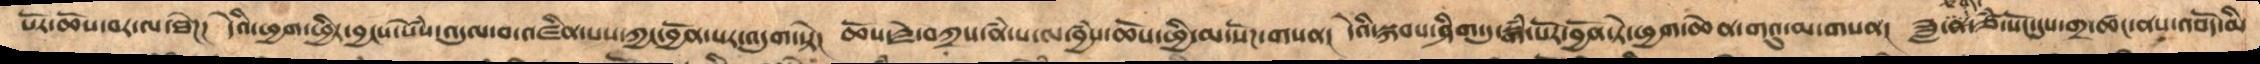པོརཆོས་བར་ལ་ཐེཌ། དེའི་ཕྱག་ཕྱིར་བྱངས་སེཾས་འདུལ་བ་འཛིན་པས་ཀྱང་བྱོན་པར་འདུག་སྟེ། ཆོས་རྗེ་བཀྲས་ནཾ་པ་ལ་བྱཾས་ཆོས་ཕྱི་མ་སོཌ་གསན། དེའི་སྐབས་ཤིག་དུ་སྒཾ་པོར་བྱོན་ཏེ་ཕྱག་ཆེན་གའུ་མ་གསན། ཟླ་བ་ཅིག་ཙཾ་སོང་དུས་གྲ་ཚང་ནས་འབོད་མི་
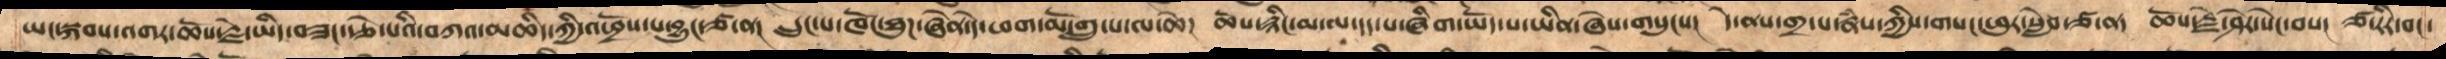ཡང་སྐབས་འགར་ཆོས་རྗེ་ཡིད་བཟང་རྩེ་པའི་བཀའ་མཆིད་ཀྱི་འཕྲོས་པ་བྱུང་ཙ་ན།  དྲུང་པ་ཁོང་ཐུཌ་ཞེན་དེ་ཕག་མོ་གྲུ་པ་ལ་ཆེ།  ཆོས་རྙིང་མ་ལ་དད་པ་ཞིག་ཡོད་པ་ཡིན་ཞེས་གསུངས།  དེ་ནས་གྲ་པ་རྣཾས་ཀྱིས་གསང་ཕུར་སླེབ་ཙ་ན།  ཆོས་རྗེ་ཤེར་སེང་བས།  ཙ་རིར་བང་
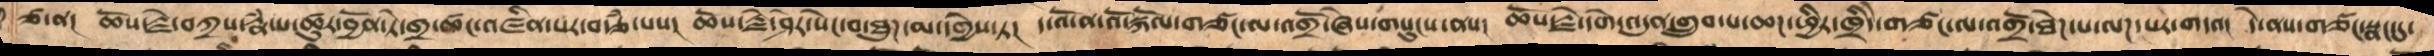ཙ་ན།  ཆོས་རྗེ་བཀྲས་རྣཾ་པ་ཚུར་བྱོན་ཏེ་གྲ་ཚང་འཛིན་པར་བརྩཾ་པས།  ཆོས་རྗེ་ཤེར་སེང་བ་ཐུཌ་མ་དགྱེས་ཏ།  ད་འོ་ན་འོ་སྐོལ་གཙང་ལ་འགྲོ་ཞེས་གསུངས་ནས།  ཆོས་རྗེ་དགེ་འདུན་གྲུབ་པ་ཆཌ་ཕྱིར་ཁྲིདེ་གཙང་ལ་འགྲོ་ཐེཌ་པ་ལཌ་པར་གདའ།  དེ་ནས་གཙང་སྣང་དུ་་
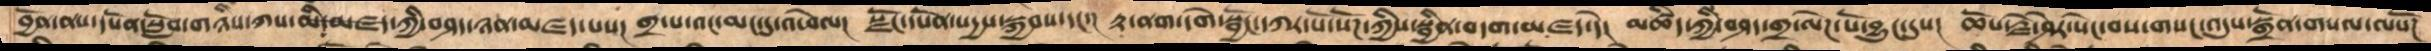བྱོན་ནས་དཔོན་སློབ་གཉིས་ཀས་མི་མཛདད་ཀྱི་བཤད་ཉན་མཛད་པས།  གྲ་པ་འང་མང་དུ་འཕེལ།  སྫོང་དཔོན་སདྱས་སྐྱབས་དང་།  རྟ་ནག་དགེ་སྦྱོང་དཀར་པོ་སོཌ་ཀྱིས་སྦྱིན་བདག་མཛད་དེ།  མཚིད་ཀྱི་བཤད་གྲ་ལེཌ་པོ་བྱུང་དུས།  ཆོས་རྗེ་ཤེར་སེང་བས་གསང་འདུས་སྒྲོན་གསལ་ལསོཌ
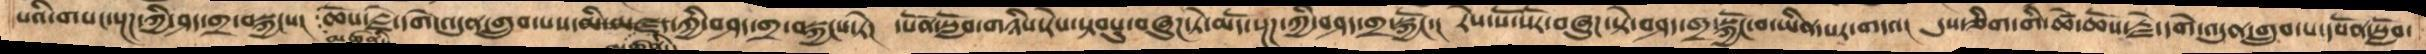པའི་གསང་སྔཌ་ཀྱི་ཤད་གྲ་བསྐྱངས། མཚན་ཆོས་རྗེ་དགེ་འདུན་གྲུབ་པས་མི་མཛད་ཀྱིབཤད་གྲ་བསྐྱངས་ཏེ། དཔོན་སློབ་གཉིས་རེས་སྟབསུ་བཞུཌ་ཏེ་མདོ་སྔཌ་ཀྱི་བཤད་གྲ་སྐྱོང་། རེས་སོ་སོར་བཞུཌ་སྟེ་བཤད་གྲ་སྐྱོང་བ་ཡིན་པར་གདའ། དུས་ཅིག་གི་ཚེ་ཆོས་རྗེ་དགེ་འདུན་གྲུབ་པ་དཔོན་སློབ་
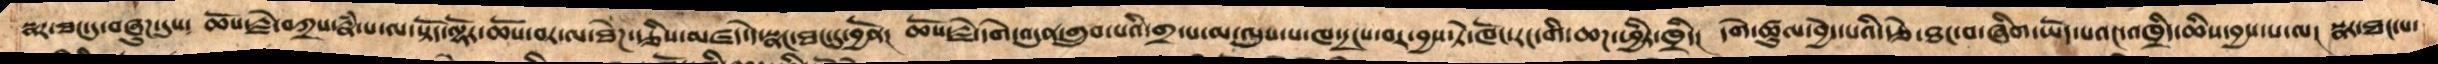སྣར་ཐང་དུ་བཞུཌ་དུས།  ཆོས་རྗེ་བཀྲས་རྣཾ་པ་ལ་སྟོད་ལྷོར་ཆོས་བར་ལ་ཐེཌ་རྩིས་མཛད་དེ་སྣར་ཐང་དུ་བྱོན།  ཆོས་རྗེ་དགེ་འདུན་གྲུབ་པའི་གྲ་པ་མ་ལུས་པ་ཁ་དྲངས་བར་བྱས་ཏེ་ཁོང་རང་གི་ཆཌ་ཕྱིར་ཁྲིད།  དགེ་ཚུལ་བྱེད་པའི་རྩེ་ཐང་བ་ཞིག་ཡོད་པའང་འཁྲིད་ཆིས་བྱས་པ་ལ།  སྣར་ཐང་པ་
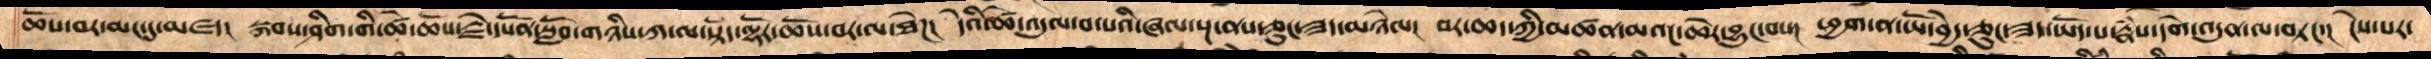ཆོས་བར་མང་དུ་མཛད།   སྐབས་ཤིག་གི་ཚེ་ཆོས་རྗེ་དཔོན་སློབ་གཉིས་ཀ་ལ་སྟོད་ལྷོར་ཆོས་བར་ལ་ཐེཌ།   དེའི་ཚེ་འདུལ་བ་པའི་ཞལ་སྔ་ནས་ཅུང་ཟད་མཉེལ།  བར་ཆད་ཀྱི་མཚན་མའང་ཆེར་བྱུང་བས།  ཕྱག་ན་ཡོ་བྱེད་ཅུང་ཟད་ཡོད་པ་རྣཾས་དགེ་འདུན་ལ་བཏང་།  ངེས་པར་
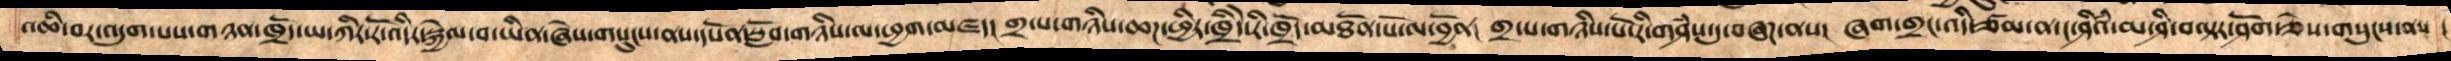འཆི་བར་འདུག་པས་གཉན་ཁྲོད་ཡ་ཀིར་རོ་འདིར་སྐྱེལ་བ་ཡིན་ཞེས་གསུངས་ནས་དཔོན་སློབ་གཉིས་ལ་ཕྱག་མཛད།  གྲ་པ་གཉིས་ཆཌ་ཕྱིར་ཁྲིདེ་རི་ཁྲོད་མཐོན་པོ་ལ་བྱོན།  གྲ་པ་གཉིས་པོ་རི་གཤཾས་དུ་བཞཌ་ནས།  ཞག་གྲང་འདི་ཙམ་ན་ང་ཤིའཾ་མ་ཤི་བལྟར་ཤོག་ཅེས་གསུངས་ནས།
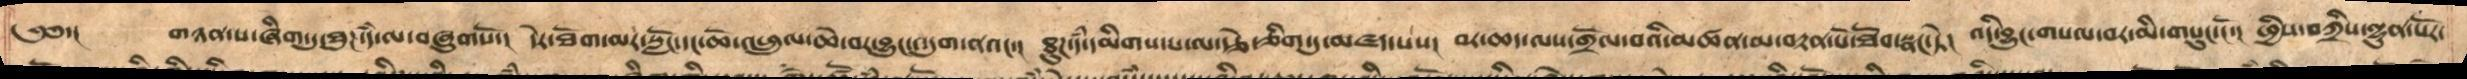༄༅་།    གཉན་ས་ཞིག་དུ་ཐུཌ་དཾ་ལ་བཞུགསོ་།  དེར་ཐོག་མར་སློང་དང་ཆོ་འཕྲུལ་ཆེ་བར་བྱུང་འདུག་ནའང་།  ཐུཌ་དཾ་དམིགས་པ་ལ་རྩེ་ཅིག་དུ་མཛད་པས།  བར་ཆད་ལས་གྲོལ་བའི་མཚན་མ་བརྟན་པོ་ཐོབ་སྣང་ཏེ།  འདི་བྱུང་གསལ་བར་མི་གསུང་ངོ་།  ཕྱིས་བཀྲིས་ལྷུན་པོར་
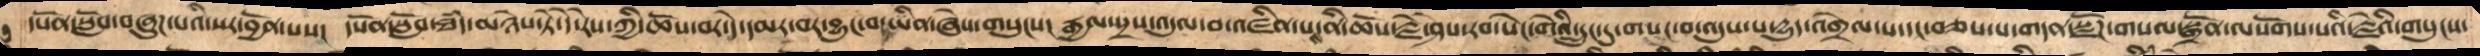དཔོན་སློབ་བཞུཌ་པའི་སར་བྱོན་པས། དཔོན་སློབ་ཐཾད་མཉེས་ཏེ་དེ་རེས་ཆོས་བར་དེ་དམར་བར་བྱུང་བ་ཡིན་ཞེས་གསུངས། རྒྱལ་སྲས་འདུལ་བ་འཛིན་པས་ནི་ཆོས་རྗེ་ཤེས་རབ་སེང་གེའི་དྲུང་དུ་གསང་བ་འདུས་པ་དྱུད་འགྲེལ་པ་དང་བཅས་པ་གདན་སྫོཌ་གསལ་སྒྲོན་ལསོགས་པའི་རྗེའི་གསུངས་
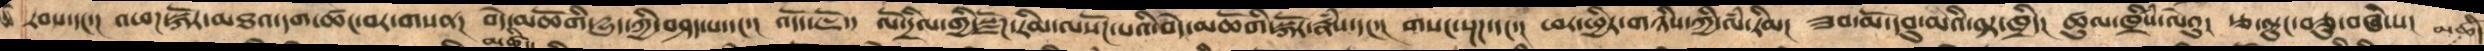རབས་དང་། འཕཌ་སྐོར་མཐའ་དག་ཚང་བར་གསན། བདེ་མཆོགི་དྱུད་ཀྱི་བཤད་པ་དང་། འདོད་ཇོ་། ལོ་དྲིལ་གྱི་སྫོཌ་རིམ་ལསོཌ་པའི་བདེ་མཆོགི་སྐོར་རྣཾས་དང་། གསང་སྔཌ་དང་། ཕར་ཕྱིར་གཉིས་ཀྱི་ལཾ་རིམ། ཟབ་མོ་དབུ་མའི་ལྟ་ཁྲིད། ཚུལ་ཁྲིཾས་ལེའུ། རྩ་ལྟུང་བཅུ་བཞི་པ། མཆི
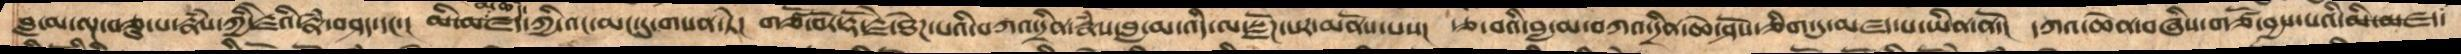བླ་མ་ལྔ་བཅུ་པ་རྣཾས་ཀྱི་རྗེའི་རྣཾ་བཤད་དང་། མི་མཛད་ཀྱི་འང་མང་དུ་གསན་ཏེ། གཙོ་བོར་རྡོ་རྗེ་ཐེཌ་པའི་བཀའ་དྲིན་རྣཾས་བླ་མ་འདི་ལ་སྫོཌ་པར་མནོས་པས། རྩ་བའི་བླ་མ་བཀའ་དྲིན་ཆེ་ཤོས་ཅིག་དུ་མཛད་པ་ཡིན་ནོ། དཀའ་ཆེན་བཞིས་གཙོ་བྱས་པའི་མི་མཛད་
